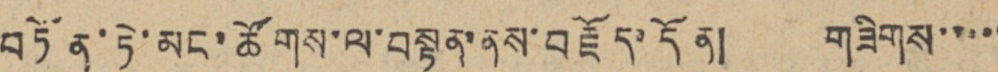བཏོན་ཏེ་མང་ཚོགས་ལ་བསྟན་ནས་བརྗོད་དོན། གཟིགས་་་་་
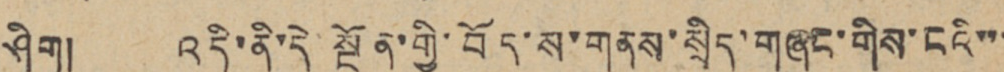ཤིག། འདི་ནི་དེ་སྔོན་གྱི་བོད་ས་གནས་སྲིད་གཞུང་གིས་ངའི་་་
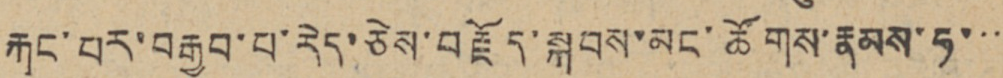རྐང་པར་བརྒྱབ་པ་རེད་ཅེས་བརྗོད་སྐབས་མང་ཚོགས་རྣམས་ཧ་་་་
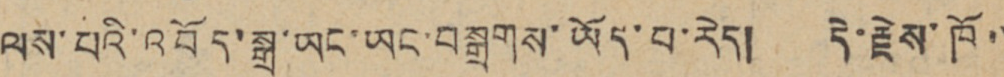ལས་པའི་འབོད་སྒྲ་ཡང་ཡང་བསྒྲགས་ཡོད་པ་རེད། དེ་རྗེས་ཁོ་་
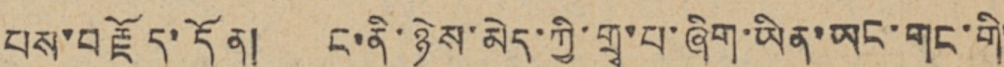པས་བརྗོད་དོན། ང་ནི་ཉེས་མེད་ཀྱི་གྲྭ་པ་ཞིག་ཡིན་ཡང་གང་གི་
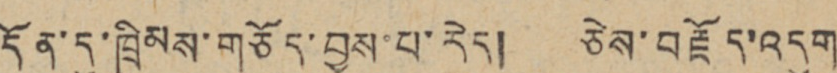དོན་དུ་ཁྲིམས་གཅོད་བྱས་པ་རེད། ཅེས་བརྗོད་འདུག
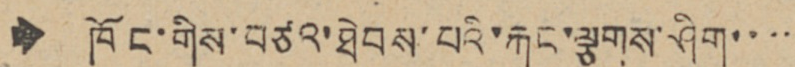🠺 ཁོང་གིས་བཙའ་ཐེབས་པའི་རྐང་ལྕགས་ཤིག་་་་་
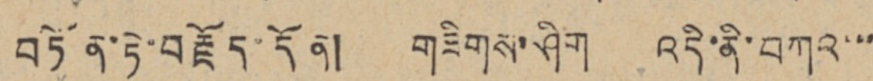བཏོན་ཏེ་བརྗོད་དོན། གཟིགས་ཤིག འདི་ནི་བཀའ་་་
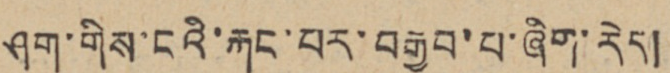ཤག་གིས་ངའི་རྐང་པར་བརྒྱབ་པ་ཞིག་རེད།
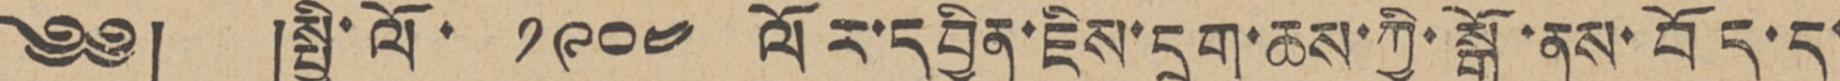༄༅། །སྤྱི་ལོ་ ༡༩༠༤ ལོར་དབྱིན་ཇིས་དྲག་ཆས་ཀྱི་སྒོ་ནས་བོད་དུ་
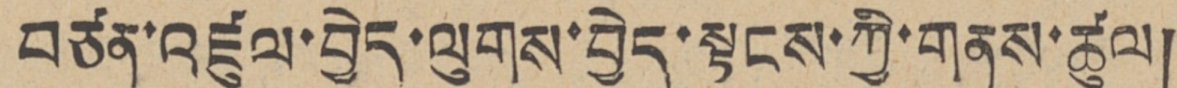བཙན་འཛུལ་བྱེད་ལུགས་བྱེད་སྟངས་ཀྱི་གནས་ཚུལ།
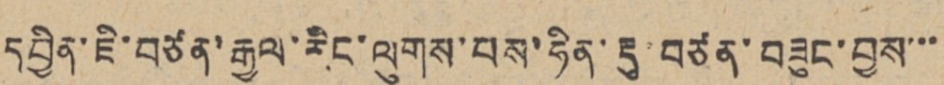དབྱིན་ཇི་བཙན་རྒྱལ་རིང་ལུགས་པས་ཧིན་རྡུ་བཙན་བཟུང་བྱས་་་
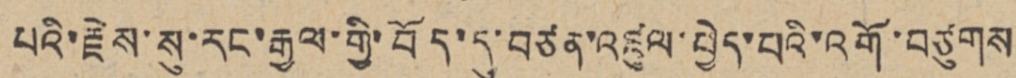པའི་རྗེས་སུ་རང་རྒྱལ་གྱི་བོད་དུ་བཙན་འཛུལ་བྱེད་པའི་འགོ་བཙུགས
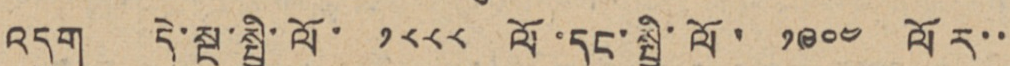འདུག དེ་སྔ་སྤྱི་ལོ་ ༡༨༨༨ ལོ་དང་སྤྱི་ལོ་ ༡༩༠༤ ལོར་་
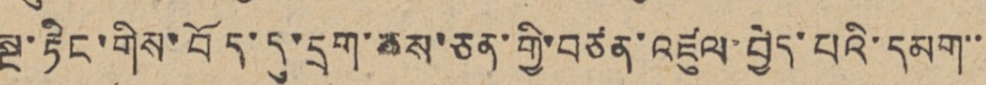སྔ་རྟིང་གིས་བོད་དུ་དྲག་ཆས་ཅན་གྱི་བཙན་འཛུལ་བྱེད་པའི་དམག་་་
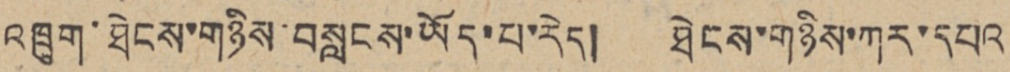འཁྲུག་ཐེངས་གཉིས་བླངས་ཡོད་པ་རེད། ཐེངས་གཉིས་ཀར་དཔའ
